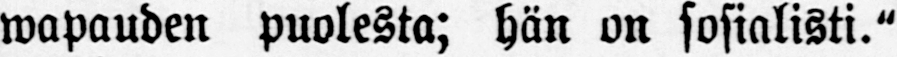wapauden puolesta; hän on sosialisti."
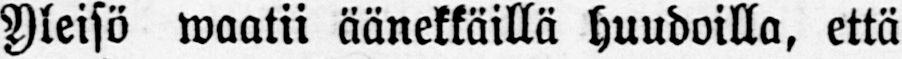Yleisö waatii äänekkäillä huudoilla, että
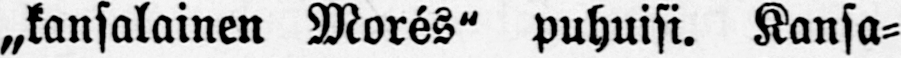„kansalainen Morés" puhuisi. Kansa-
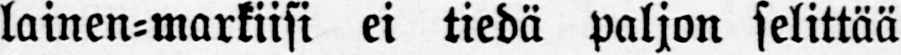lainen-markiisi ei tiedä paljon selittää
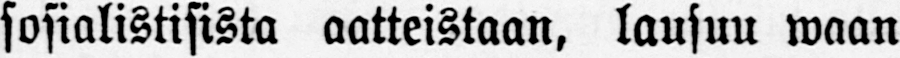sosialistisista aatteistaan, lausuu waan
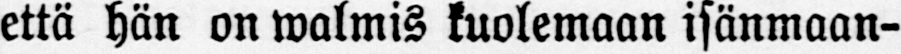että hän on walmis kuolemaan isänmaan-
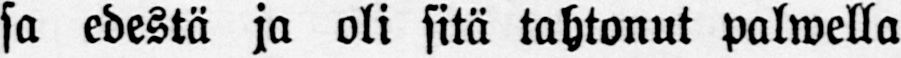sa edestä ja oli sitä tahtonut palwella
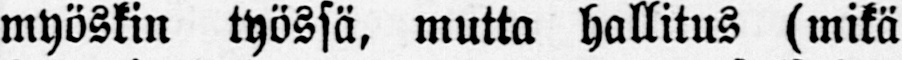myöskin työssä, mutta hallitus (mikä
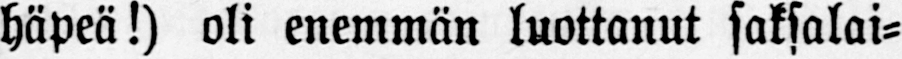häpeä!) oli enemmän luottanut saksalai-
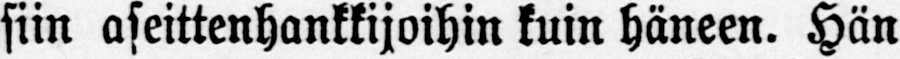siin aseittenhankkijoihin kuin häneen. Hän
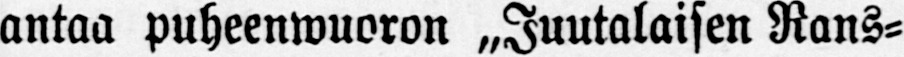antaa puheenwuoron „Juutalaisen Rans-
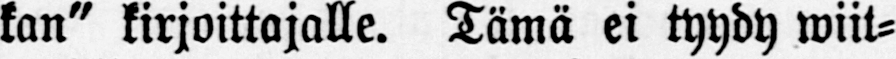kan" kirjoittajalle. Tämä ei tyydy wiit-
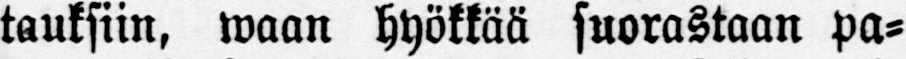tauksiin, waan hyökkää suorastaan pa-
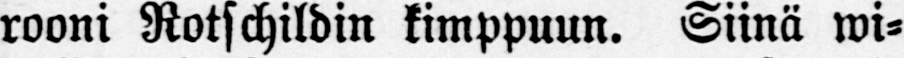rooni Rotschildin kimppuun. Siinä wi-
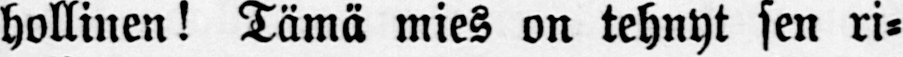hollinen! Tämä mies on tehnyt sen ri-
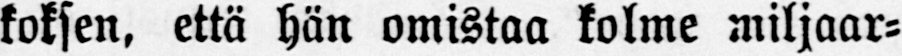koksen, että hän omistaa kolme miljaar-
